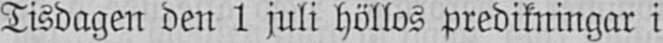Tisdagen den 1 juli höllos predikningar i
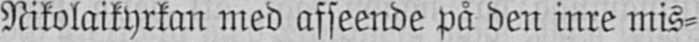Nikolaikyrkan med afseende på den inre mis-
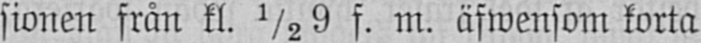sionen från kl. 1/2 9 f. m. äfwensom korta
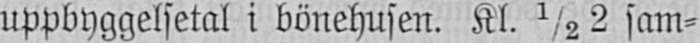uppbyggelsetal i bönehusen. Kl. 1/2 2 sam-
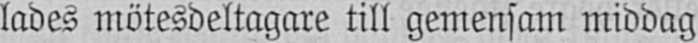lades mötesdeltagare till gemensam middag
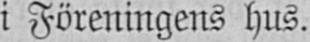i Föreningens hus.
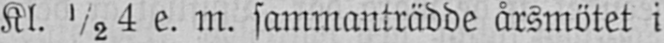Kl. 1/2 4 e. m. sammanträdde årsmötet i
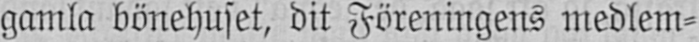gamla bönehuset, dit Föreningens medlem-
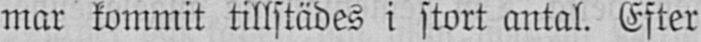mar kommit tillstädes i stort antal. Efter
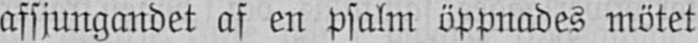afsjungandet af en psalm öppnades mötet
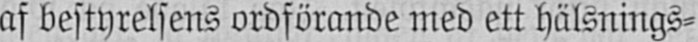af bestyrelsens ordförande med ett hälsnings-
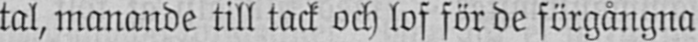tal, manande till tack och lof för de förgångna
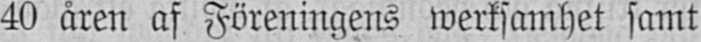40 åren af Föreningens werksamhet samt
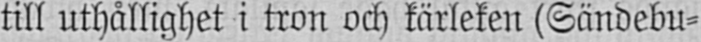till uthållighet i tron och kärleken (Sändebu-
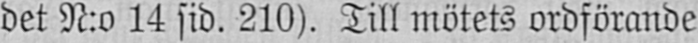det N:o 14 sid. 210). Till mötets ordförande
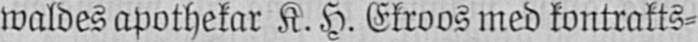waldes apothekar K. H. Ekroos med kontrakts-
